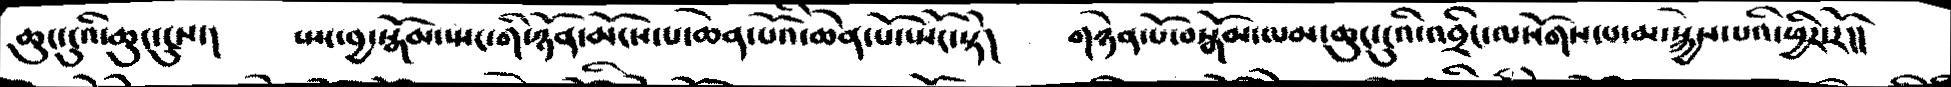ཆུང་ངུའི་ཆུང་ངུས་།    སྤང་བྱ་སྒོམ་སྤང་གི་ཉོན་མོངས་པ་ཆེན་པོའི་ཆེན་པོ་སྤོང་སྟེ།   གཉེན་པོ་བསྒོམ་ལམ་ཆུང་ངུའི་འབྲིང་ལསོགས་པ་མ་སྐྱེས་པའི་ཕྱིར་རོ།།
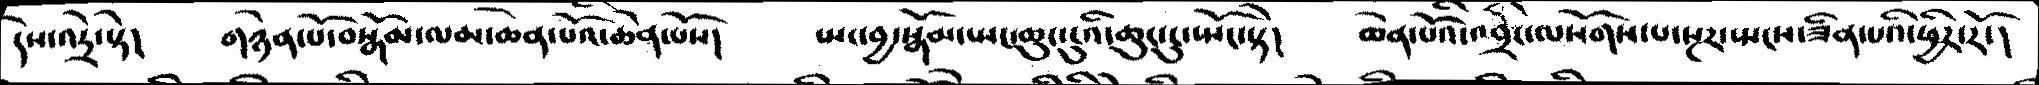དེས་འདྲེ་སྟེ།    གཉེན་པོ་བསྒོམ་ལམ་ཆེན་པོའི་ཆེན་པོས།    སྤང་བྱ་སྒོམ་སྤང་ཆུང་ངུའི་ཆུང་ངུ་སྤོང་སྟེ།   ཆེན་པོའི་འབྲིང་ལསོགས་པ་སྔར་སྤངས་ཟིན་པའི་ཕྱིར་རོ་།
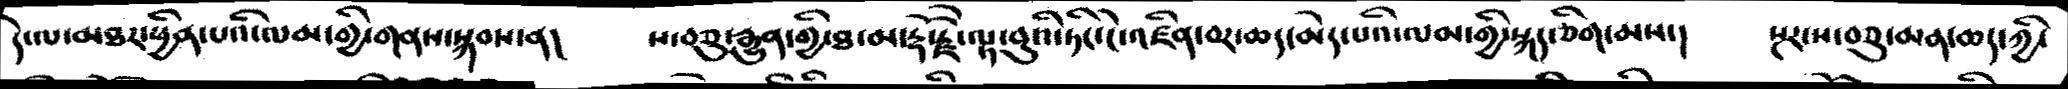དེ་ལ་མཐར་ཕྱིན་པའི་ལམ་གྱི་གནས་སྐབས་ན།    ས་བཅུ་རྒྱུན་གྱི་ཐ་མ་རྡོ་རྗེ་ལྟ་བུའི་ཏིང་ངེ་འཛིན་བར་ཆད་མེད་པའི་ལམ་གྱི་སྐད་ཅིག་མས་།   སྔར་ས་བཅུ་མན་ཆད་ཀྱི་
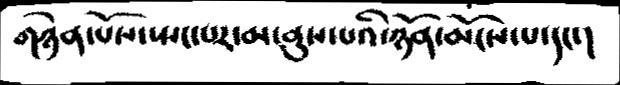གཉེན་པོས་སྤང་པར་མ་ནུས་པའི་ཉོན་མོངས་པ་དང་།
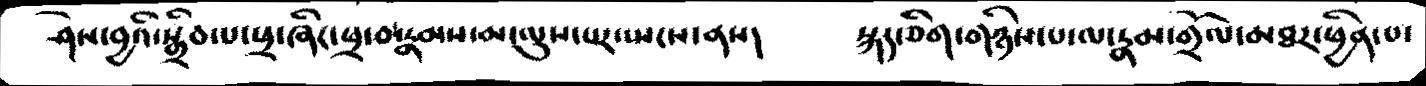ཤེས་བྱའི་སྒྲིབ་པ་ཕྲ་ཞིང་ཕྲ་བ་རྣམས་མ་ལུས་པར་སྤངས་ནས།    སྐད་ཅིག་གཉིས་པ་ལ་རྣམ་གྲོལ་མཐར་ཕྱིན་པ་
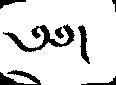༄༅།
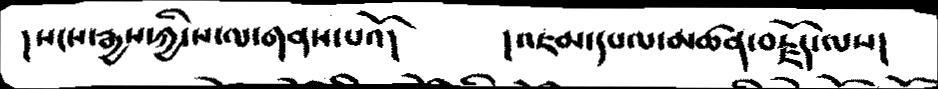།སངས་རྒྱས་ཀྱི་ས་ལ་གནས་པའོ།    །འཇམ་དཔལ་མཚན་བརྗོད་ལས།
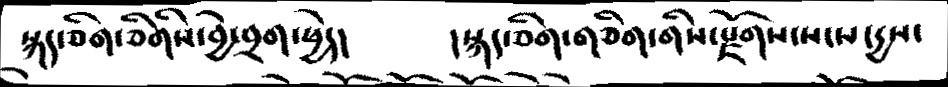སྐད་ཅིག་ཅིགསི་བྱེ་བྲག་ཕྱེད།      །སྐད་ཅིག་གཅིག་གིས་རྫོགས་སངས་དྱས་
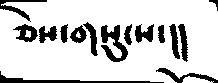ཅེས་གསུངས་།།
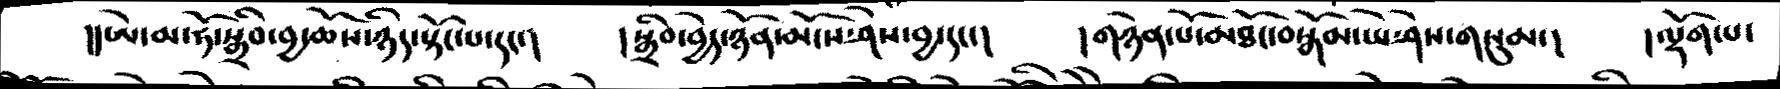།།ཨེ་མ་ཧོ་སྒྲིབ་བྱ་ཆོས་ཉིད་སྟོང་པ་དང་།    །སྒྲིབ་བྱེད་ཉོན་མོངས་ཤེས་བྱ་དང་།    །གཉེན་པོ་མཐོང་བསྒོམ་ཡེ་ཤེས་གསུམ་།    །ལྡོག་པ་
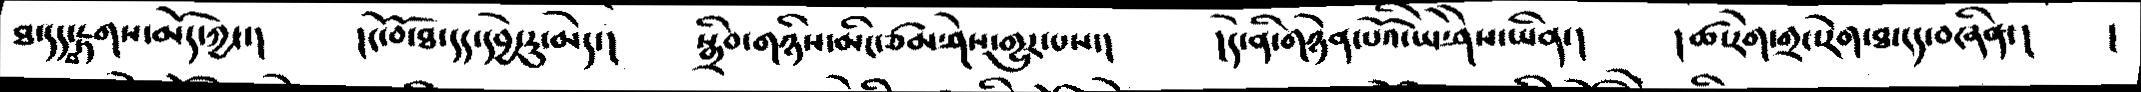ཐ་དད་བརྟགས་མོད་ཀྱང་།    །ངོ་བོ་ཐ་དད་དབྱེ་རུ་མེད་།   སྒྲིབ་གཉིས་མིང་ཙམ་ཤེས་གྱུར་པས་།    །དེ་ནི་གཉེན་པོའི་ཡེ་ཤེས་ཡིན་།   །ཚ་རེག་གྲང་རེག་ཐ་དད་བཞིན་།   །
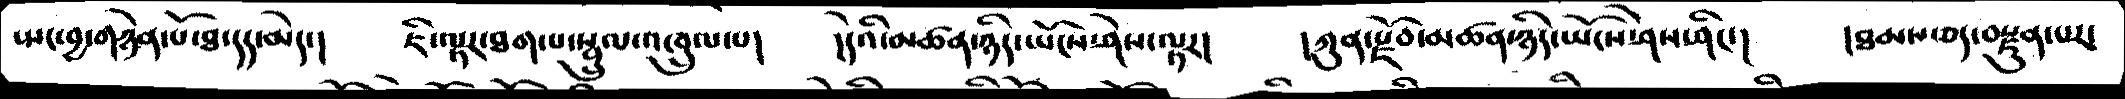སྤང་བྱ་གཉེན་པོ་ཐ་དད་མེད་།    ཇི་ལྟར་ཐག་པ་སྦྲུལ་འཁྲུལ་པ།    །དེའི་མཚན་ཉིད་ཡོངས་ཤེས་ལྟར།   །ཀུན་རྫོབ་མཚན་ཉིད་ཡོངས་ཤེས་ཤིང་།   །ཐམས་ཅད་བརྫུན་པར་
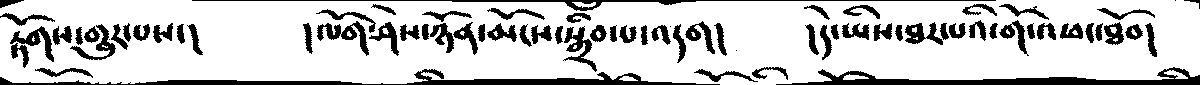རྟོགས་གྱུར་པས་།     །ལོག་ཤེས་ཉོན་མོངས་སྒྲིབ་པ་འདག།     །དེ་ཡིས་ཐར་པའི་གོ་འཕང་ཐོབ།
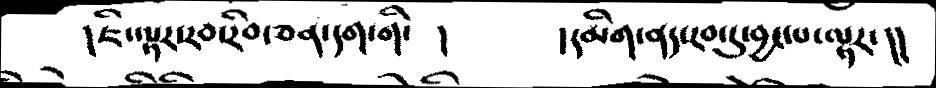།ཇི་ལྟར་རབ་རིབ་ཅན་དག་གི་ །      །དམིག་ནད་རབ་དུ་བྱང་པ་ལྟར་།།
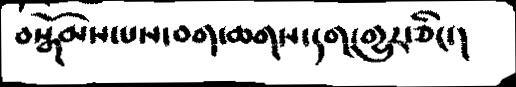བསྒོམས་པས་བག་ཆགས་དག་གྱུར་ཅིང་།
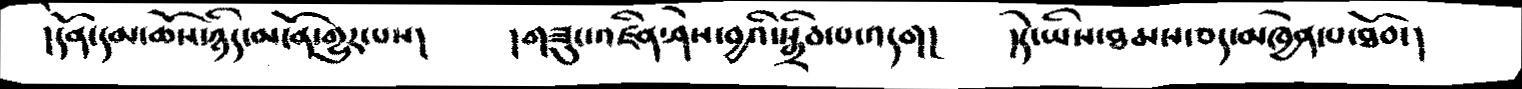།དོན་དམ་ཆོས་ཉིད་མངོན་གྱུར་པས།    །གཟུང་འཛིན་ཤེས་བྱའི་སྒྲིབ་པ་འདག།    །དེ་ཡིས་ཐམས་ཅད་མཁྱེན་པ་ཐོབ་།
